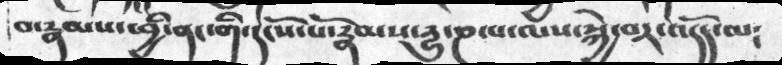བ་རྣམས་ཕྱི་ནང་གི་དངོས་པོ་རྣམས་དྱུ་ཎ་པ་ལས་སྐྱེ་བར་འདོད་ལ༴
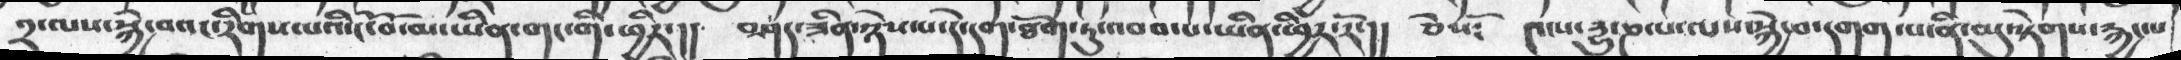༢་ལས་སྐྱེ་བའང་རིགས་པའི་ངོ་བོ་མ་ཡིན་གང་གི་ཕྱིར་།།   བཤད་ཟིན་ཉེས་པ་དེ་དག་ཐོག་ཏུ་འབབ་པ་ཡིན་ཕྱིར་རོ་།།  ཅེསོ༴   ༤་པ་དྱུ་ཎ་པ་ལས་སྐྱེ་བ་དགག་པ་ནི་མུ་སྟེགས་རྐྱང་པ
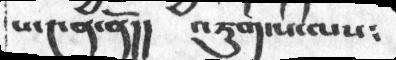པ་༤ན་ནོ།།    འཇུག་པ་ལས༴
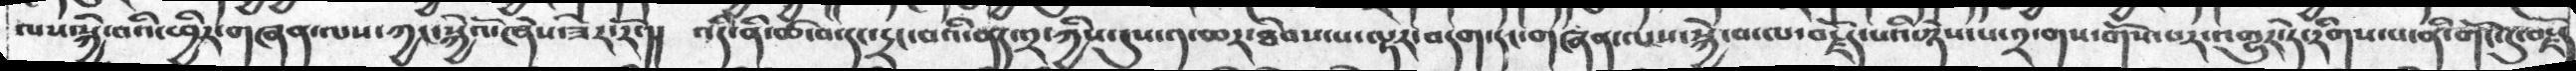ལས་སྐྱེ་བའི་ཕྱིར་གཞན་ལས་ཀྱང་སྐྱེའོ་ཞེས་ཟེར་རོ་།།   འདི་ནི་ཚ་བ་དང་དྲང་བའི་ནད་༢་ཀྱིས་དུས་༡་ཆར་ཐེབས་པ་ལྟར་བདག་དང་གཞན་ལས་སྐྱེ་བ་ལ་བརྗོད་པའི་ཉེས་པ་༢་གས་གོས་པར་འགྱུར་ཏེ་རིགས་པ་ནི་གོང་དུ་བརྗོད
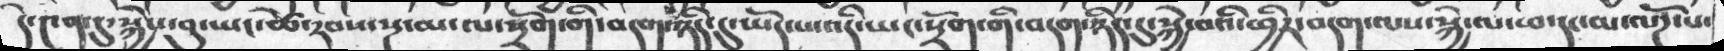དེ་༤ན་དུ་སྐྱེས་བུ་ཡང་ཚེ་རབས་སྔ་མ་ལ་སྲོག་གི་བདག་ཉིད་དུ་ཡོད་པ་འདི་ཡང་སྲོག་གི་བདག་ཉིད་དུ་སྐྱེ་བའི་ཕྱིར་བདག་ལས་སྐྱེ་ལ་ཕ་དང་མ་ལོཌ་པ་
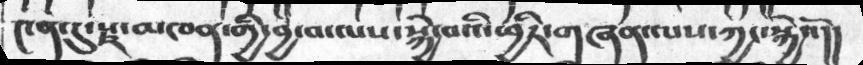༤ན་དུ་སྫ་མཁན་གྱི་བྱ་བ་ལས་སྐྱེ་བའི་ཕྱིར་གཞན་ལས་ཀྱང་སྐྱེའོ།།
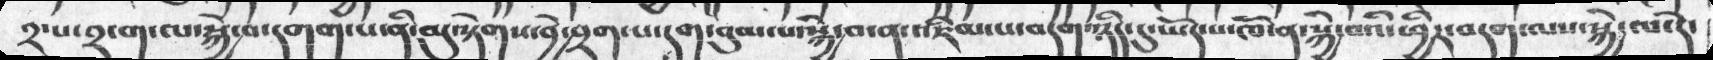༢་པ་༢་ག་ལ་སྐྱེ་བ་དགག་པ་ནི་མུ་སྟེགས་བྱེ་བྲག་པ་དག་བུམ་པ་སྐྱེ་བ་ན་འཇིམ་པ་བདག་ཉིད་དུ་ཡོད་པ་ཁོ་ན་སྐྱེ་བའི་ཕྱིར་བདག་ལས་སྐྱེ་ལ་དེ་
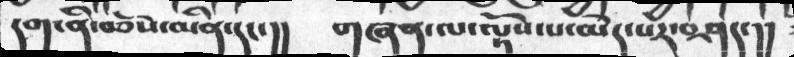དག་ནི་བཅོས་མིན་དང་།།     གཞན་ལ་ལྟོས་པ་མེད་པར་བཤད་།།
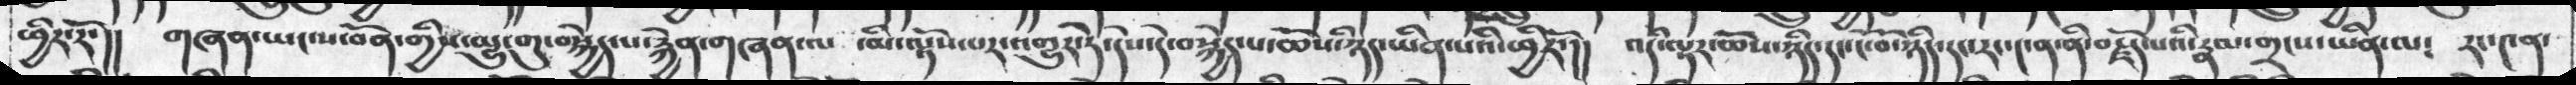ཕྱིར་རོ་།།   གཞན་ཡང་ས་བོན་གྱིས་མྱུ་གུ་བསྐྱེད་པ་རྐྱེན་གཞན་ལ་ མི་ལྟོས་པར་འགྱུར་ཏེ་དེས་དེ་བསྐྱེད་པ་ཆོས་ཉིད་ཡིན་པའི་ཕྱིརོ་།།  འདི་ལྟར་ཆོས་ཉིད་དང་ངོ་བོ་ཉིད་དང་རང་༤ན་ནི་བརྗོད་པའི་རྣམ་གྲངས་ཡིན་ལ༴   རང་༤ན་
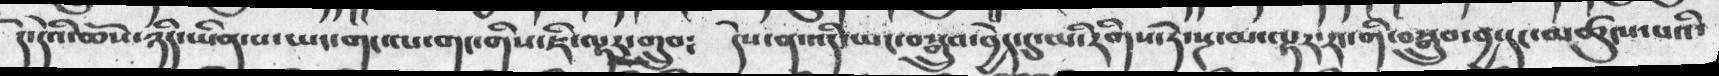དེ་དེའི་ཆོས་ཉིད་ཡིན་པ་ཡང་གང་ལ་གང་གིས་ཇི་ལྟར་གྲུབ༴    དེས་ན་འདི་ཡང་བསྒྲུབ་བྱེད་དུ་མི་རིགས་ཏེ་སྔ་མ་ལྟར་རང་གི་བསྒྲུབ་བྱ་དང་མཚུངསཔའི་
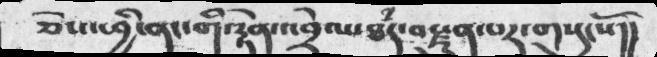ཅེས་ཕྱི་ནང་གི་རྟེན་འབྲེལ་ཐཾད་བརྫུན་པར་གསུངསོ།།
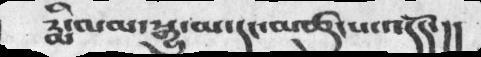རྨི་ལམ་སྒྱུ་མ་དང་མཚུངས་འདོད་།།
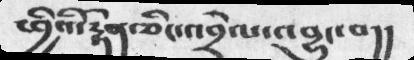ཕྱིའི་རྟེན་ཅིང་འབྲེལ་འབྱུང་བ།།
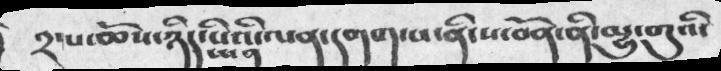༢་པ་ཆོས་ཉིད་ཡིན་པིའི་ལན་དགག་པ་ནི་ས་བོན་ནི་མྱུ་གུའི་
